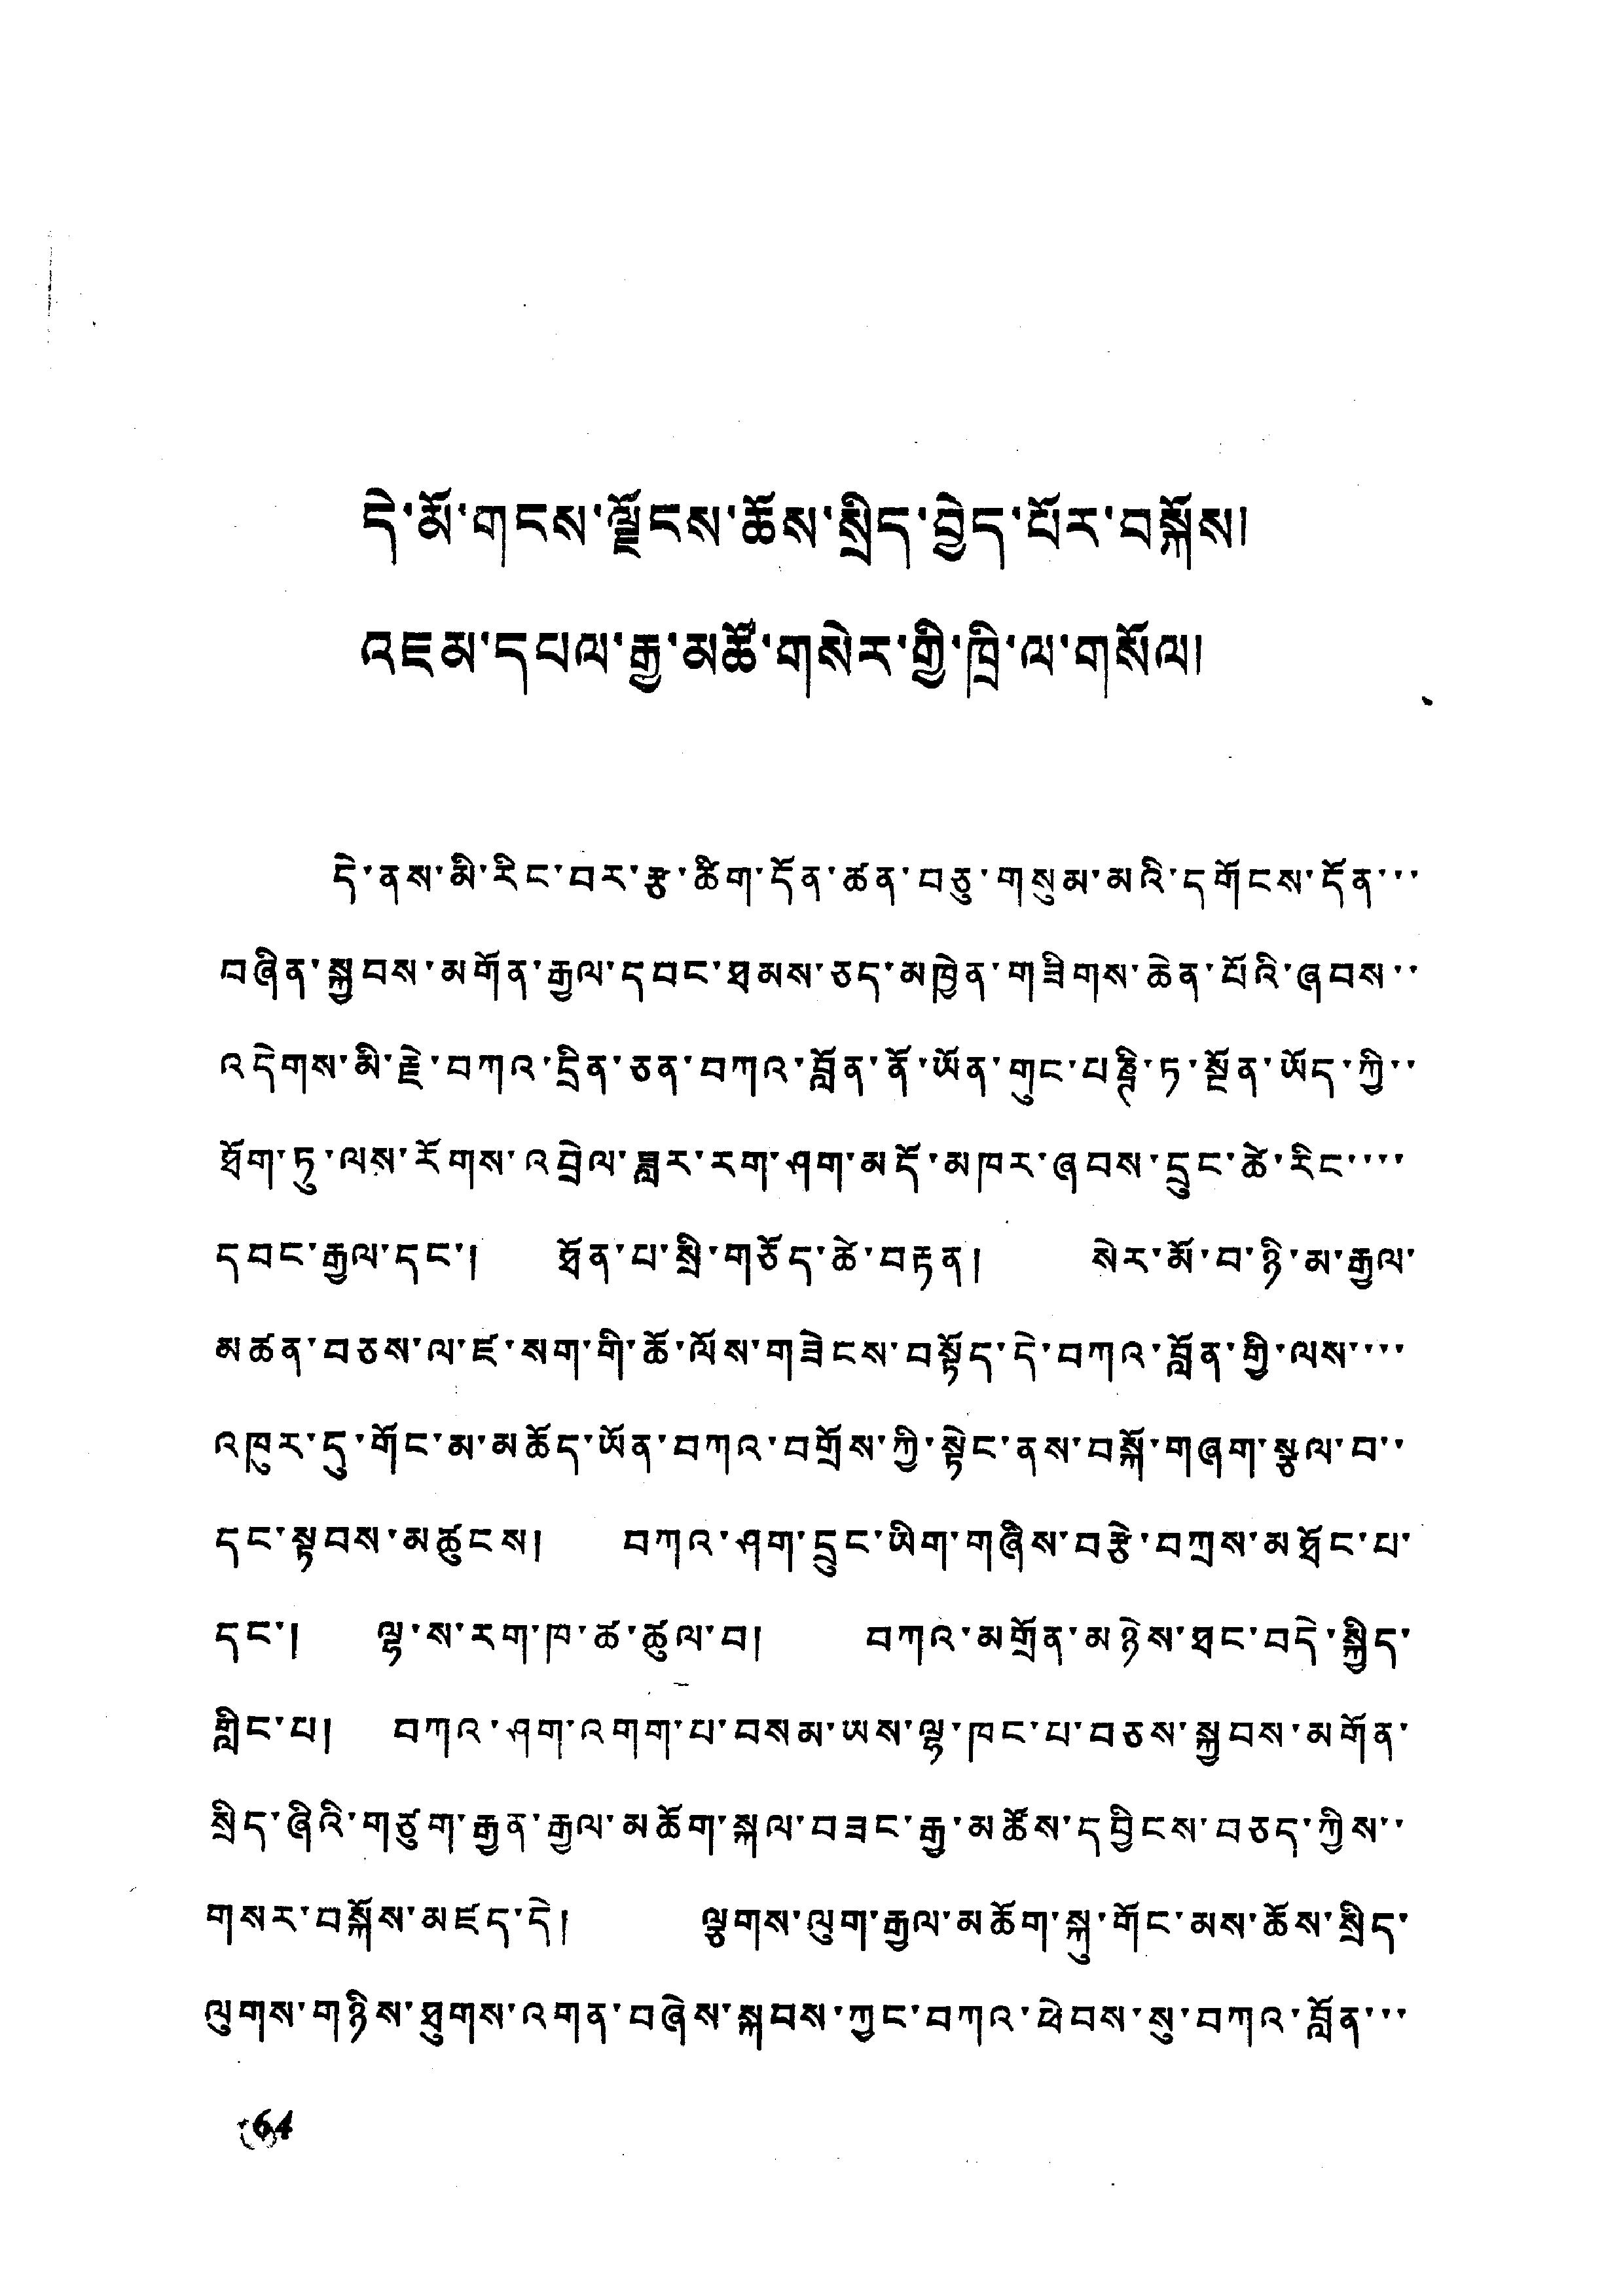དེ་མོ་གངས་ལྗོངས་ཆོས་སྲིད་བྱེད་པོར་བསྐོས།
འཇམ་དཔལ་རྒྱ་མཚོ་གསེར་གྱི་ཁྲི་ལ་གསོལ།
དེ་ནས་མི་རིང་བར་རྩ་ཚིག་དོན་ཚན་བཅུ་གསུམ་མའི་དགོངས་དོན་
བཞིན་སྐྱབས་མགོན་རྒྱལ་དབང་ཐམས་ཅད་མཁྱེན་གཟིགས་ཆེན་པོའི་ཞབས་
འདེགས་མི་རྗེ་བཀའ་དྲིན་ཅན་བཀའ་བློན་ནོ་ཡོན་གུང་པཎྚི་ཏ་སྔོན་ཡོད་ཀྱི་
ཐོག་ཏུ་ལས་རོགས་འབྲེལ་ཟླར་རག་ཤག་མདོ་མཁར་ཞབས་དྲུང་ཚེ་རིང་
དབང་རྒྱལ་དང་།་ཐོན་པ་སྲི་གཅོད་ཚེ་བརྟན་།་སེར་མོ་བ་ཉི་མ་རྒྱལ་
མཚན་བཅས་ལ་ཛ་སག་གི་ཆོ་ལོས་གཟེངས་བསྟོད་དེ་བཀའ་བློན་གྱི་ལས་
འཁུར་དུ་གོང་མ་མཆོད་ཡོན་བཀའ་བགྲོས་ཀྱི་སྟེང་ནས་བསྐོ་བཞག་སྩལ་པ་
དང་སྟབས་མཚུངས་།་བཀའ་ཤག་དྲུང་ཡིག་གཞིས་བརྩེ་བཀྲས་མཐོང་པ་
དང་།་ལྷ་ས་རག་ཁ་ཚ་ཚུལ་བ་།་བཀའ་མགྲོན་མཉེས་ཐང་བདེ་སྐྱིད་
གླིང་པ་།་བཀའ་ཤག་འགག་པ་བསམ་ཡས་ལྷ་ཁང་པ་བཅས་སྐྱབས་མགོན་
སྲིད་ཞིའི་གཙུག་རྒྱན་རྒྱལ་མཆོག་སྐལ་བཟང་རྒྱ་མཚོས་དབྱིངས་བཅད་ཀྱིས་
གསར་བསྐོས་མཛད་དེ་།་ལྕགས་ལུག་རྒྱལ་མཆོག་སྐུ་གོང་མས་ཆོས་སྲིད་
ལུགས་གཉིས་ཐུགས་འགན་བཞེས་སྐབས་ཀྱང་བཀའ་ཕེབས་སུ་བཀའ་བློན་
64
